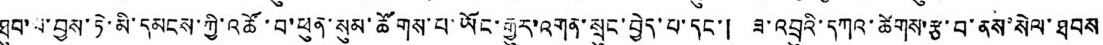ཐུབ་པ་བྱས་ཏེ་མི་དམངས་ཀྱི་འཚོ་བ་ཕུན་སུམ་ཚོགས་པ་ཡོང་རྒྱུར་འགན་སྲུང་བྱེད་པ་དང་། ཟ་འབྲུའི་དཀའ་ཚེགས་རྩ་བ་ནས་སེལ་ཐབས
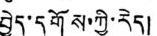བྱེད་དགོས་ཀྱི་རེད།
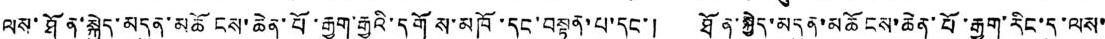ལས་ཐོན་སྐྱེད་མདུན་མཆོངས་ཆེན་པོ་རྒྱག་རྒྱུའི་དགོས་མཁོ་དང་བསྟུན་པ་དང་། ཐོན་སྐྱེད་མདུན་མཆོངས་ཆེན་པོ་རྒྱག་རིང་དུ་ལས་
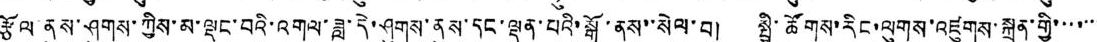རྩོལ་ནུས་ཤུགས་ཀྱིས་མ་ལྡང་བའི་འགལ་ཟླ་དེ་ཤུགས་ནུས་དང་ལྡན་པའི་སྒོ་ནས་སེལ་བ། སྤྱི་ཚོགས་རིང་ལུགས་འཛུགས་སྐྲུན་གྱི་་་་་་་
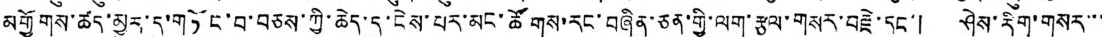མགྱོགས་ཚད་མྱུར་དུ་གཏོང་བ་བཅས་ཀྱི་ཆེད་དུ་ངེས་པར་མང་ཚོགས་རང་བཞིན་ཅན་གྱི་ལག་རྩལ་གསར་བརྗེ་དང་། ཤེས་རིག་གསར་་་
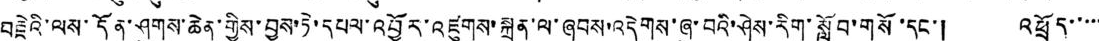བརྗེའི་ལས་དོན་ཤུགས་ཆེན་གྱིས་བྱས་ཏེ་དཔལ་འབྱོར་འཛུགས་སྐྲུན་ལ་ཞབས་འདེགས་ཞུ་བའི་ཤེས་རིག་སློབ་གསོ་དང་། འཕྲོད་་་་་
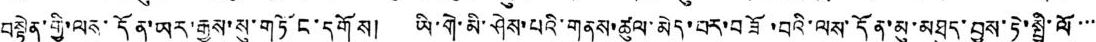བསྟེན་གྱི་ལས་དོན་ཡར་རྒྱས་སུ་གཏོང་དགོས། ཡི་གེ་མི་ཤེས་པའི་གནས་ཚུལ་མེད་པར་བཟོ་བའི་ལས་དོན་མུ་མཐུད་བྱས་ཏེ་སྤྱི་ལོ་་་་
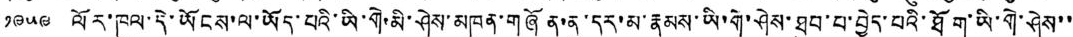༡༩༥༩ ལོར་ཁུལ་དེ་ཡོངས་ལ་ཡོད་པའི་ཡི་གེ་མི་ཤེས་མཁན་གཞོན་ནུ་དར་མ་རྣམས་ཡི་གེ་ཤེས་ཐུབ་པ་བྱེད་པའི་ཐོག་ཡི་གེ་ཤེས་་
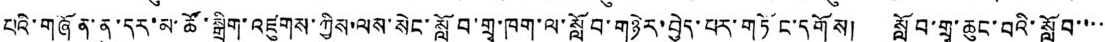པའི་གཞོན་ནུ་དར་མ་ཚོ་སྒྲིག་འཛུགས་ཀྱིས་ལས་སེང་སློབ་གྲྭ་ཁག་ལ་སློབ་གཉེར་བྱེད་པར་གཏོང་དགོས། སློབ་གྲྭ་ཆུང་བའི་སློབ་་་་
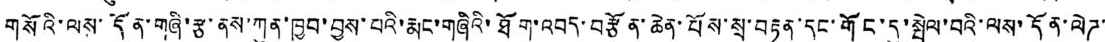གསོའི་ལས་དོན་གཞི་རྩ་ནས་ཀུན་ཁྱབ་བྱས་པའི་རྨང་གཞིའི་ཐོག་འབད་བརྩོན་ཆེན་པོས་སྲ་བརྟན་དང་གོང་དུ་སྤེལ་བའི་ལས་དོན་ལེཌ་
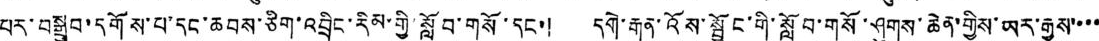པར་བསྒྲུབ་དགོས་པ་དང་ཆབས་ཅིག་འབྲིང་རིམ་གྱི་སློབ་གསོ་དང་། དགེ་རྒན་འོས་སྦྱོང་གི་སློབ་གསོ་ཤུགས་ཆེན་གྱིས་ཡར་རྒྱས་་་་
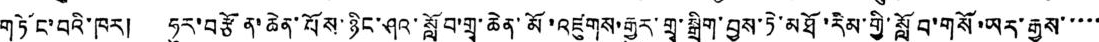གཏོང་བའི་ཁར། ཧུར་བརྩོན་ཆེན་པོས་ཉིང་ཤའ་སློབ་གྲྭ་ཆེན་མོ་འཛུགས་རྒྱུར་གྲྭ་སྒྲིག་བྱས་ཏེ་མཐོ་རིམ་གྱི་སློབ་གསོ་ཡར་རྒྱས་་་་་
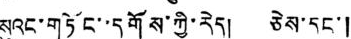སུའང་གཏོང་་དགོས་ཀྱི་རེད། ཅེས་དང་།
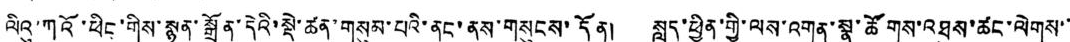ལིའུ་ཀའོ་ཕིང་གིས་སྙན་སྒྲོན་དེའི་སྡེ་ཚན་གསུམ་པའི་ནང་ནས་གསུངས་དོན། སླད་ཕྱིན་གྱི་ལས་འགན་སྣ་ཚོགས་འཐུས་ཚང་ལེགས་་
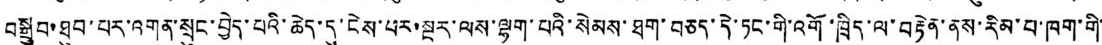བསྒྲུབ་ཐུབ་པར་འགན་སྲུང་བྱེད་པའི་ཆེད་དུ་ངེས་པར་སྔར་ལས་ལྷག་པའི་སེམས་ཐག་བཅད་དེ་ཏང་གི་འགོ་ཁྲིད་ལ་བརྟེན་ནས་རིམ་པ་ཁག་གི་
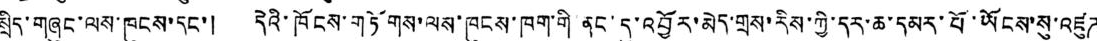སྲིད་གཞུང་ལས་ཁུངས་དང་། དེའི་ཁོངས་གཏོགས་ལས་ཁུངས་ཁག་གི་ནང་དུ་འབྱོར་མེད་གྲས་རིས་ཀྱི་དར་ཆ་དམར་པོ་ཡོངས་སུ་འཛུཌ
